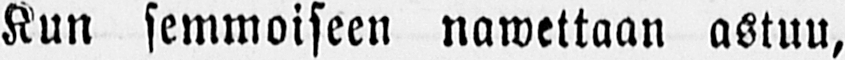Kun semmoiseen nawettaan astuu,
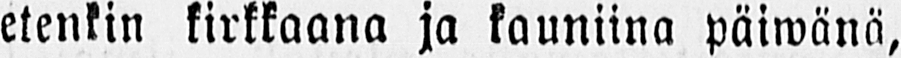etenkin kirkkaana ja kauniina päiwänä,
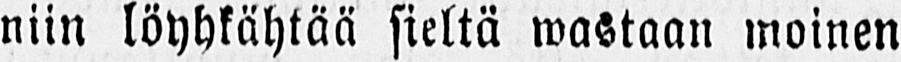niin löyhkähtää sieltä wastaan moinen
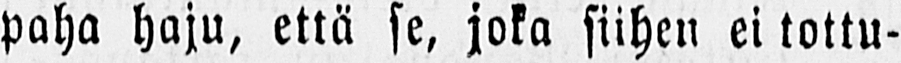paha haju, että se, joka siihen ei tottu-
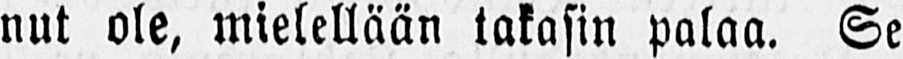nut ole, mielellään takasin palaa. Se
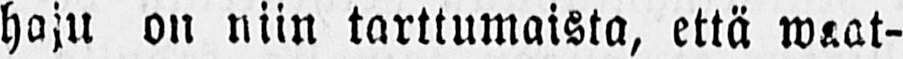haju on niin tarttumaista, että waat-
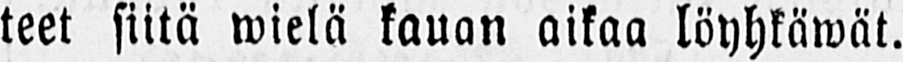teet siitä wielä kauan aikaa löyhkäwät.
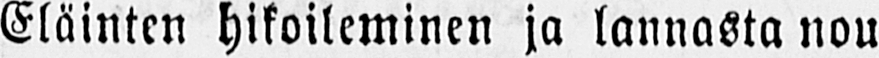Eläinten hikoileminen ja lannasta nou
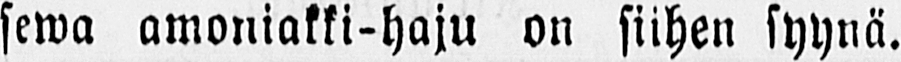sewa amoniakki-haju on siihen syynä.
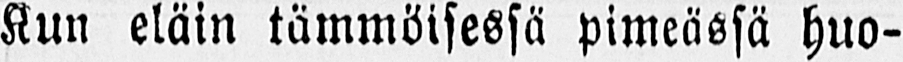Kun eläin tämmöisessä pimeässä huo-
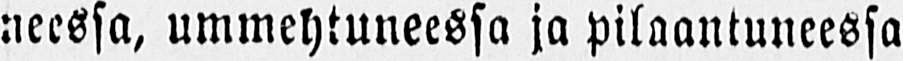neessa, ummehtuneessa ja pilaantuneessa
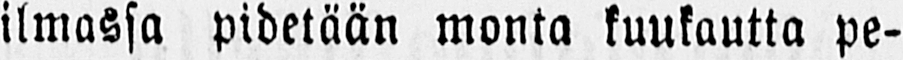ilmassa pidetään monta kuukautta pe-
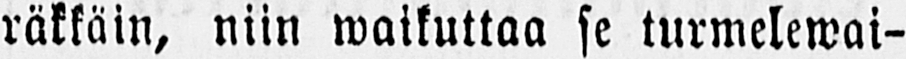räkkäin, niin waikuttaa se turmelewai-
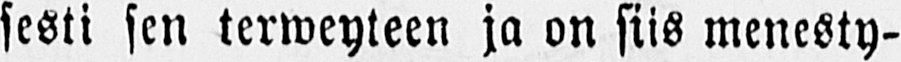sesti sen terweyteen ja on siis menesty-
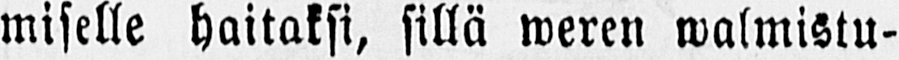miselle haitaksi, sillä weren walmistu-
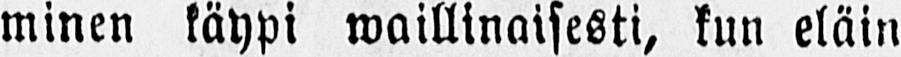minen käypi waillinaisesti, kun eläin
